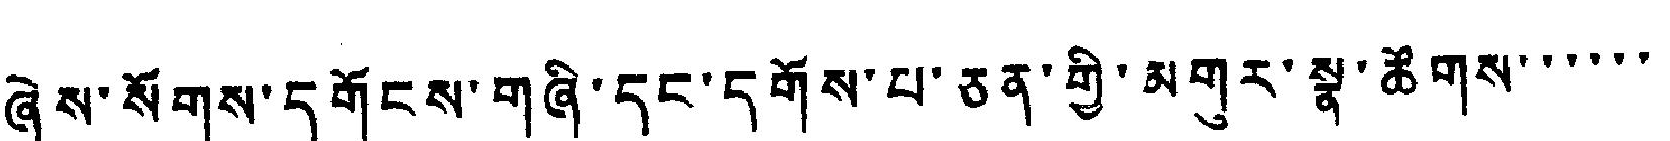ཞེས་སོགས་དགོངས་གཞི་དང་དགོས་པ་ཅན་གྱི་མགུར་སྣ་ཚོགས་་་་་་
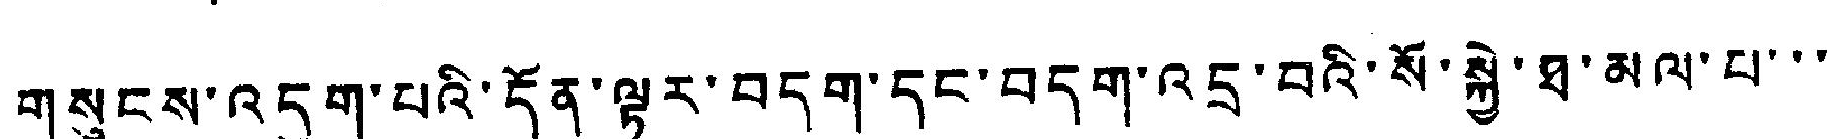གསུངས་འདུག་པའི་དོན་ལྟར་བདག་དང་བདག་འདྲ་བའི་སོ་སྐྱེ་ཐ་མལ་པ་་་
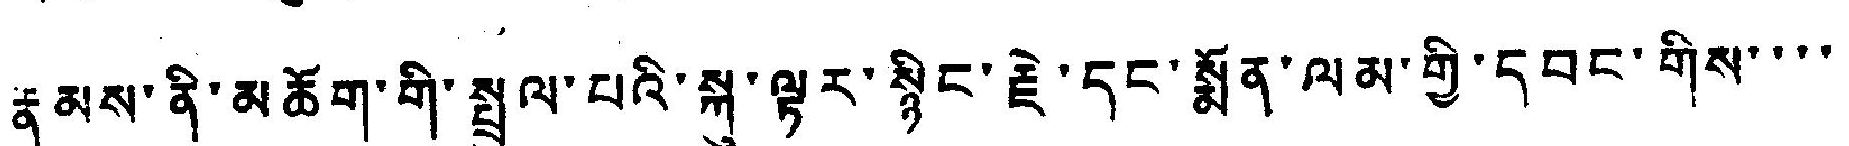རྣམས་ནི་མཆོག་གི་སྤྲུལ་པའི་སྐུ་ལྟར་སྙིང་རྗེ་དང་སྨོན་ལམ་གྱི་དབང་གིས་་་་
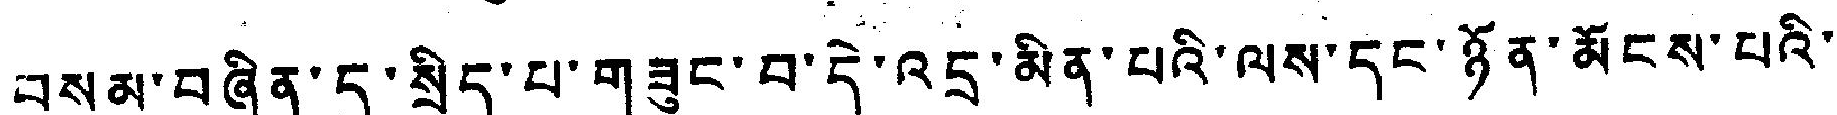བསམ་བཞིན་དུ་སྲིད་པ་གཟུང་བ་དེ་འདྲ་མིན་པའི་ལས་དང་ཉོན་མོངས་པའི་
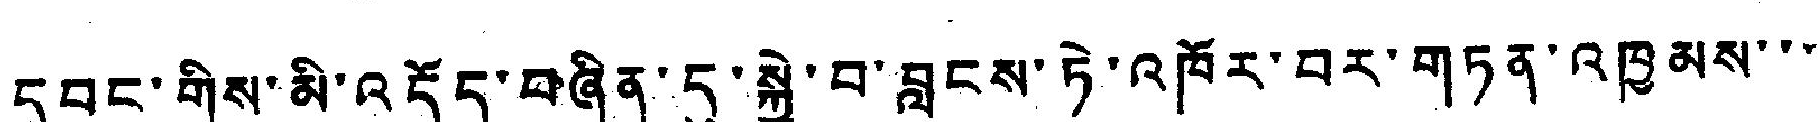དབང་གིས་མི་འདོད་བཞིན་དུ་སྐྱེ་བ་བླངས་ཏེ་འཁོར་བར་གཏན་འཁྱམས་་་
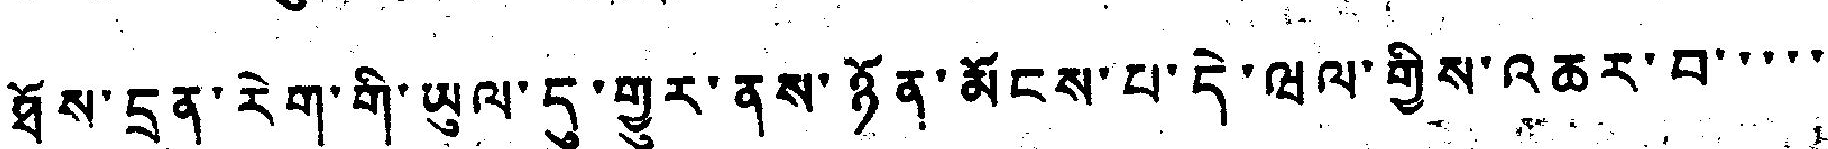ཐོས་དྲན་རེག་གི་ཡུལ་དུ་གྱུར་ནས་ཉོན་མོངས་པ་དེ་ཝལ་གྱིས་འཆར་བ་་་་་
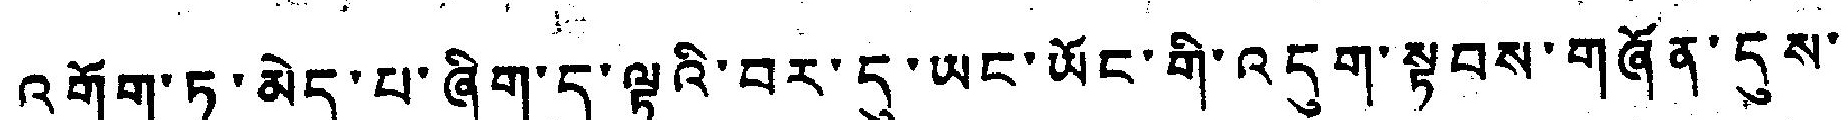འགོག་ཏུ་མེད་པ་ཞིག་ད་ལྟའི་བར་དུ་ཡང་ཡོང་གི་འདུག་སྟབས་གཞོན་དུས་
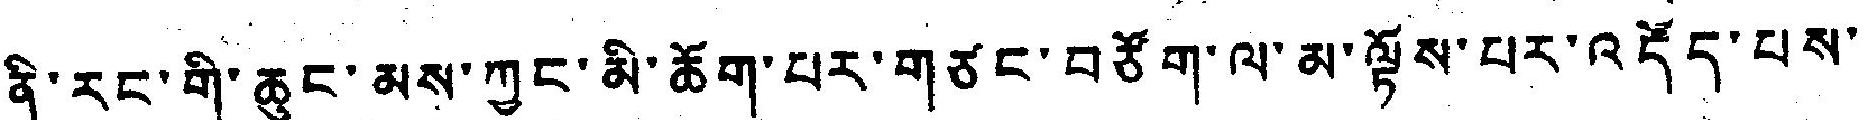ནི་རང་གི་ཆུང་མས་ཀྱང་མི་ཆོག་པར་གཙང་བཙོག་ལ་མ་ལྟོས་པར་འདོད་པས་
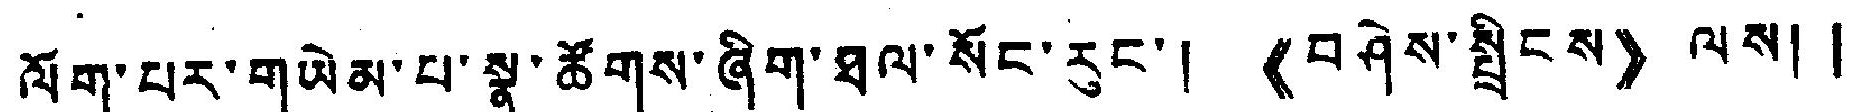ལོག་པར་གཡེམ་པ་སྣ་ཚོགས་ཞིག་ཐལ་སོང་རུང་། 《བཤེས་སྤྲིངས》ལས༎
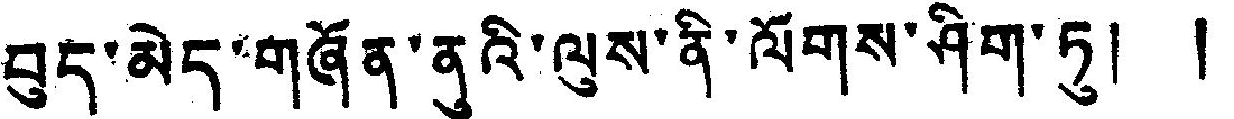བུད་མེད་གཞོན་ནུའི་ལུས་ནི་ལོགས་ཤིག་ཏུ། །
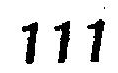111
